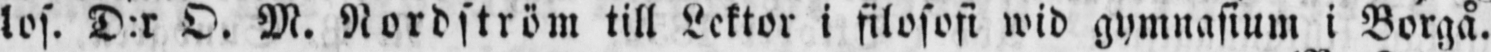los. D:r O. M. Nordström till Lektor i filosofi wid gymnasium i Borgå.
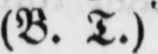(B. T.)'
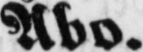Åbo.
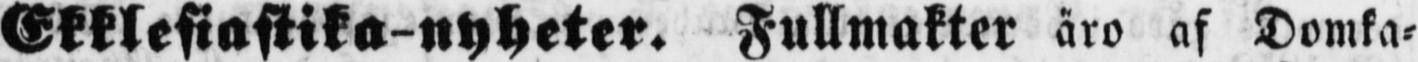Ekklesiastika nyheter. Fullmakter äro af Domka-
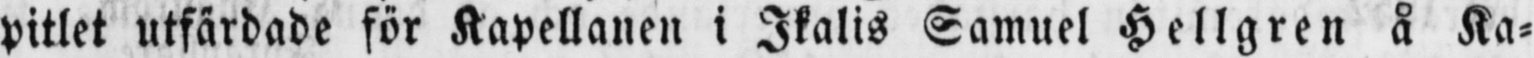pitlet utfärdade för Kapellanen i Ikalis Samuel Hellgren å Ka-
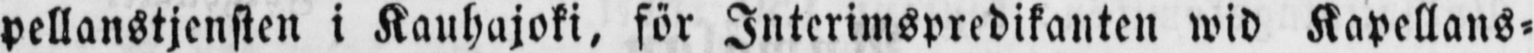pellanstjensten i Kauhajoki, för Interimspredikanten wid Kapellans-
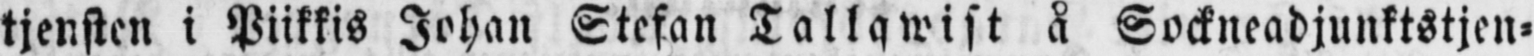tjensten i Piikkis Johan Stefan Tallqwist å Sockneadjunktstjen-
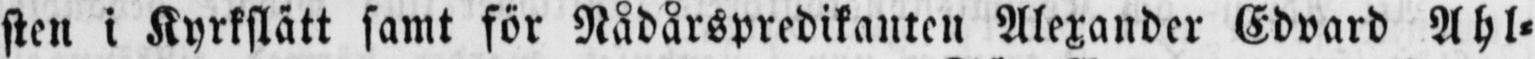sten i Kyrkslätt samt för Nådårspredikanten Alexander Edvard Ahl-
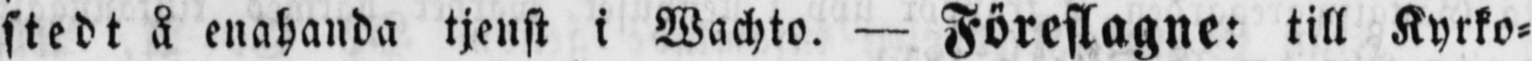stedt å enahanda tjenst i Wachto. — Föreslagne: till Kyrko-
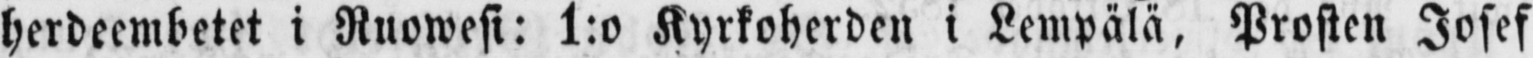herdeembetet i Ruowesi: 1:o Kyrkoherden i Lempälä, Prosten Josef
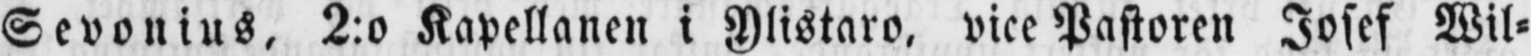Sevonius, 2:o Kapellanen i Ylistaro, vice Pastoren Josef Wil-
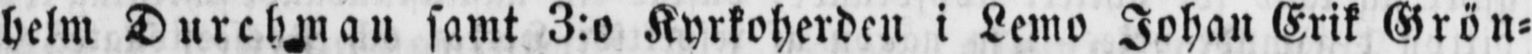helm Durchman samt 3:o Kyrkoherden i Lemo Johan Erik Grön-
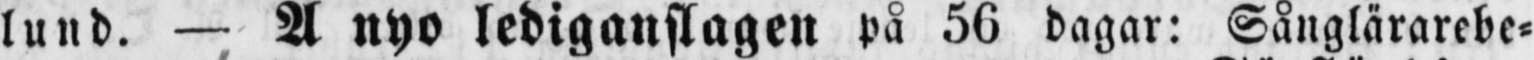lund. — Å nyo lediganslagen på 56 dagar: Sånglärarebe-
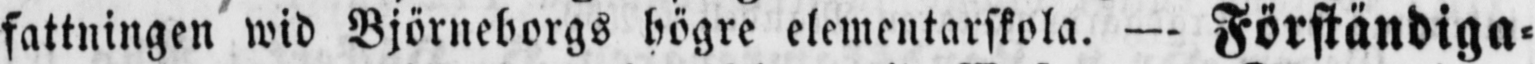fattningen wid Björneborgs högre elementarskola. — Förständiga-
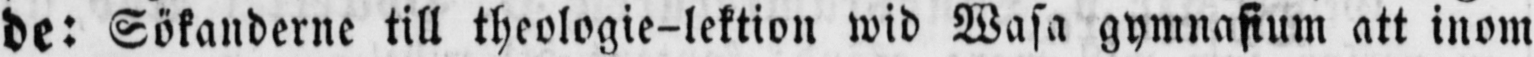de: Sökanderne till theologie-lektion wid Wasa gymnasium att inom
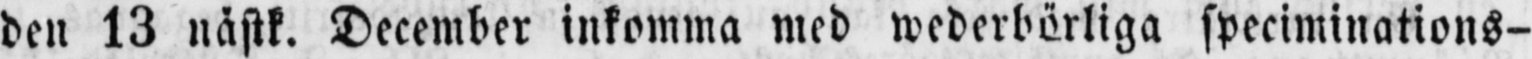den 13 nästk. December inkomma med wederbörliga speciminations-
